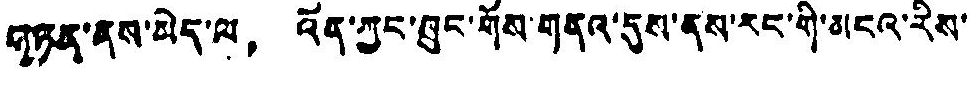ཤཅན་ནས་མེད་ལ， འོན་ཀྱང་ཐུང་གོས་གནའ་དུས་ནས་རང་གི་མངའ་རིས་
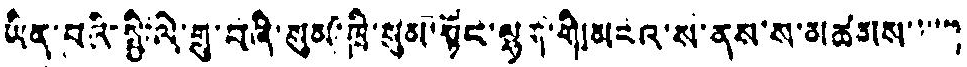ཡིན་པའི་སྤྱི་ལེ་གྲུ་བཞི་སུམ་ཁྲི་སུམ་སྟོང་ལྷག་གི་མངའ་ས་ནས་ས་མཚམས་་་་་་
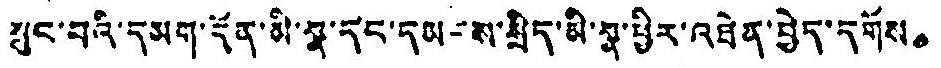སུང་བའི་དམག་དོན་མི་སྣ་དང་དམངས་སྲིད་མི་མྣ་ཕྱིར་འཐེན་བྱེད་དགོས。
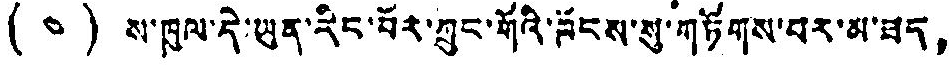(༤) ས་ཁུལ་དེ་ཡུན་རིང་བོར་ཀྲུང་གོའི་ཁོངས་སུ་གཏོགས་པར་མ་ཟད，
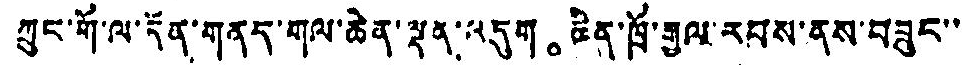ཀྲུང་གོ་ལ་དོན་གནད་གལ་ཆེན་ལྡན་འདུག。 ཆིན་ཁྲོ་རྒྱལ་རབས་ནས་བཟུང་་
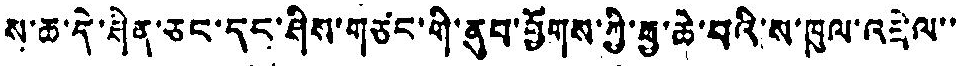ས་ཆ་དེ་ཤིན་ཅང་དང་ཤིས་གཙང་གི་ནུབ་ཕྱོགས་ཀྱི་རྒྱ་ཆེ་བའི་ས་ཁུལ་འབྲེལ་་་
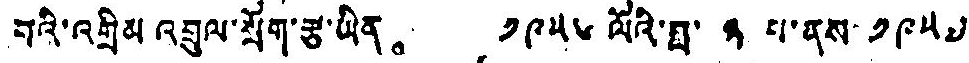བའི་འགྲིམ འབྲུལ་སྲོག་རྩ་ཡིན。 ༡༩༥༦ ལོའི་ཟླ་ ༣ པ་ནས་ ༡༩༥༧
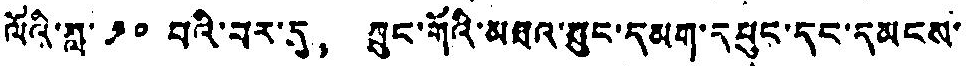ལོའི་ཟླ་ ༡༠ པའི་བར་དུ， ཀྲུང་གོའི་མཐའ་སུང་དམག་དཔུང་དང་དམངས་
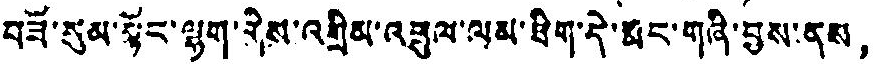བཟོ་སུམ་སྟོང་ལྷག་གིས་འགྲིམ་འཕྲུལ་ལམ་ཐིག་དེ་རྨང་གཞི་བྱས་ནས，
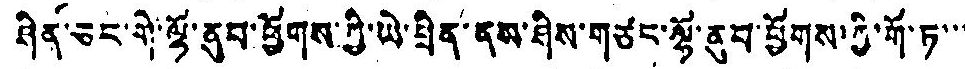ཤིན་ཅང་གི་ལྷོ་ནུབ་ཕྱོགས་ཀྱི་ཡེ་ཕྲིན་ནས་ཤིས་གཙང་ལྷོ་ནུབ་ཕྱོགས་ཀྱི་གོ་ཏ་་་
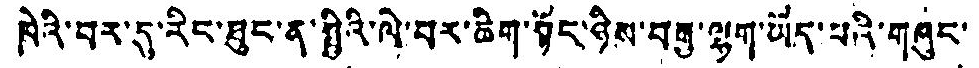ཁེའི་བར་དུ་རིང་ཐུང་ན་སྤྱིའི་ལེ་བར་ཆིག་སྟོང་ཉིས་བརྒྱ་ལྷག་ཡོད་པའི་གཞུང་
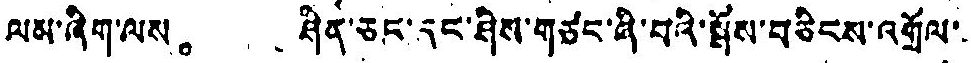ལམ་ཞིག་ལས。 ཤིན་ཅང་དང་ཤིས་གཙང་ཞི་བའི་སྤོས་བཅིངས་འགྲོལ་
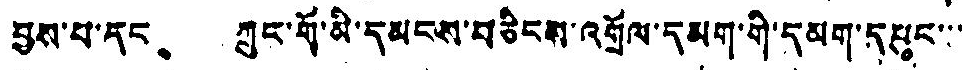བྱས་པ་དང、 ཀྲུང་གོ་མི་དམངས་བཅིངས་འགྲོལ་དམག་གི་དམག་དཔུང་་་་
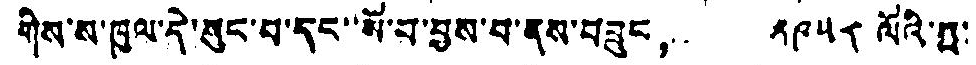གིས་ས་ཁུལ་དེ་སུང་བ་དང་་ཨོ་བ་བྱས་པ་ནས་བཟུང， ༡༩༥༨ ལོའི་ཟླ་
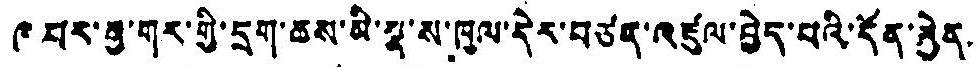༩ པར་རྒྱ་གར་གྱི་དྲག་ཆས་མི་སྣ་ས་ཁུལ་དེར་བཙན་འཛུལ་བྱེད་པའི་དོན་རྐྱེན་
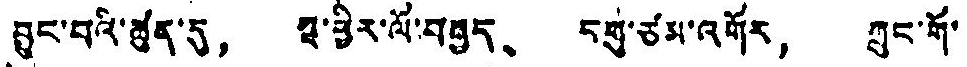བྱུང་བའི་ཚུན་དུ， ཐ་ཕྱིར་ལོ་བརྒྱད、 དགུ་ཙམ་འགོར， ཀྲུང་གོ་
